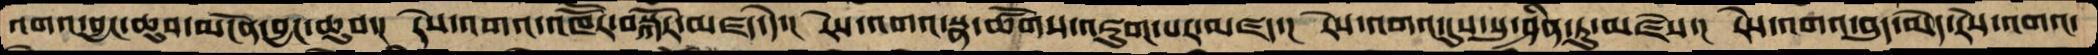འགའ་བྱང་ཆུབ་མངོན་བྱང་ཆུབ་།  རེས་འགའ་འཁཽར་བསྐོར་མཛད་དེ་།  རེས་འགའ་སྣ་ཚོགས་འཇུག་པར་མཛད་།  རེས་འགའ་དུས་སུ་ཤིན་ཏུ་མཛེས་།  རེས་འགའ་བུད་མེད་རེས་འགའ་
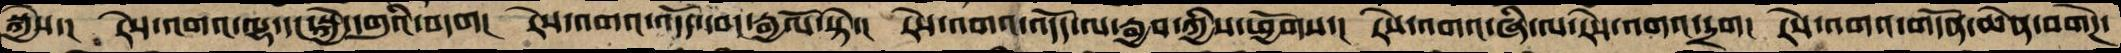སྐྱེས་།   རེས་འགའ་ལྷ་དང་སྐྱེ་འགུའི་བདག།  རེས་འགའ་འདོད་དབང་རྒྱལོ་སྟེ་།  རེས་འགའ་འདོད་ལ་རྒྱབ་ཀྱིས་ཕྱོགས་།  རེས་འགའ་ཞི་ལ་རེས་འགའ་དྲག།  རེས་འགའ་གདོན་ཆེན་བགེཌ་
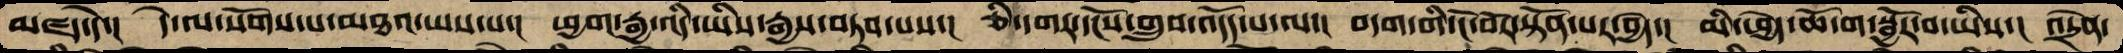མཛད་དེ་།  དེ་ལ་སོགས་པ་མཐའ་ཡས་པ་།  ཕྱག་རྒྱ་འདི་ཡིས་རྒྱས་བཏབ་པས་།  ཅི་དགར་དངོས་གྲུབ་འདོད་པ་ལ་།  བདག་གི་ངོ་བོར་སྟོན་པར་བྱེད་།  མིང་བྱེད་ཆོ་ག་སྦྱོར་བ་ཡིས་།  འདྲེན་
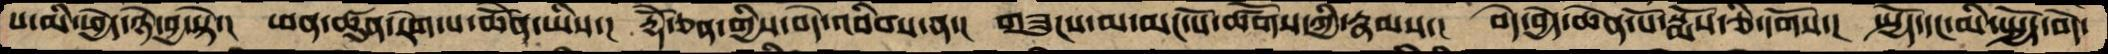པ་མི་ཕྱེད་ཉེ་བྱ་སྟེ་།  ཕན་ཚུན་རེག་པ་ཆེནོ་ཡིས་།  རྡོེ་ཅན་གྱིས་བདེ་འབིབས་ན་།  གཟུངས་མ་མང་པོ་ཚོགས་ཀྱི་རྣམས་།  བདེ་བྱེད་ཆེན་པོ་སྨོས་ཅི་དགོས་།  སྤྱོད་དང་མི་སྤྱོད་བདེ་
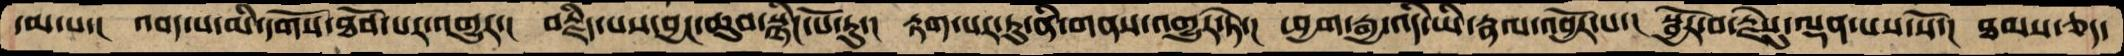དམ་པ་།  འབད་པ་མི་དགོས་ཐོབ་པར་འགྱུར་།  བརྗིད་པས་བྱང་ཆུབ་སྙིང་པོ་རུ་།  རྟག་པར་ཏུ་ནི་གནས་འགྱུར་ཏེ་།  ཕྱག་རྒྱ་འདི་ཡི་རྣལ་འབྱོར་པ་།  སྦྱོར་བ་རྗེསུ་ལྡན་པས་སོ་།  ཐམས་ཅད་
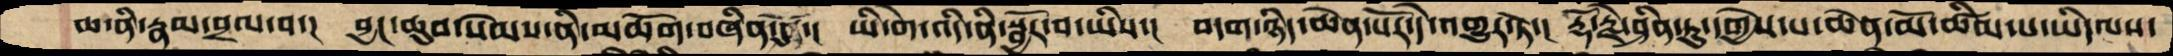ཆ་ནི་རྣམ་བྲལ་བ་།  བྱང་ཆུབ་སེམས་ནི་མཆོག་བཞིན་དུ་།  ཡི་གེ་འདི་ནི་སྦྱོར་བ་ཡིས་།  བདག་ཉིད་ཆེན་པོར་དེ་འགྱུར་ཏེ་།  རྡོ་རྗེ་ཤིན་ཏུ་དགྱེས་པ་ཆེན་མོ་ཚིམ་པ་ཡིད་ལས་
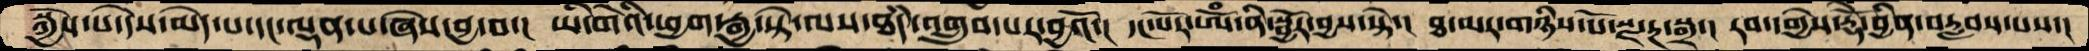སྐྱེས་པ་དེས་མེད་པ་དང་ལྡན་པ་ཞེས་བྱ་བ་།  ཡི་གེའི་ཕྱག་རྒྱ་སྟེ་ལས་ཐདཾ་འགྲུབ་པར་བྱའོ་།  དང་པོར་ཨོཾ་ནི་སྦྱོར་བྱས་སྟེ་།  ཐ་མར་གཉིས་པོ་སྫ་རྔ་སྒྲ་།  རབ་དགྱེས་རྡོེ་བྱིན་བརླབས་པས་།
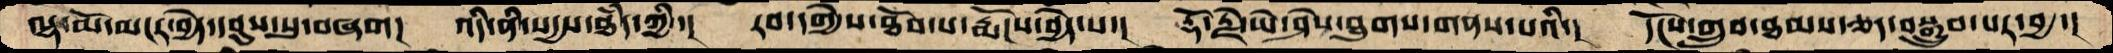ལྷ་མོ་མངར་བྱེད་དབུས་སུ་བཞག།  འདི་ནི་སདྱས་ཐདཾ་ཀྱི་།  རབ་དགྱེས་ཐོབ་པ་རྨོངས་བྱེད་པ་།  རྡོ་རྗེ་ཡེ་ཤེས་ཐུགས་གནས་པའི་།  དངོས་གྲུབ་ཐམས་ཅད་བསྒྲུབ་པར་བྱ་།
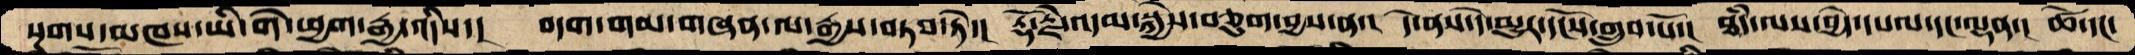སྔགས་མཁས་ཡི་གེ་ཕྱག་རྒྱ་འདིས་།  བདག་གམ་གཞན་ལ་རྒྱས་བཏབ་ཏེ་།  རྡོ་རྗེ་འདམ་སྐྱེས་བཅུག་བྱས་ན་།  དེ་ནས་དེ་མྱུར་དངོས་གྲུབ་པོ་།  ཐདཾ་ལས་བྱེད་དཔལ་དང་ལྡན་།  ཚེ་དང་
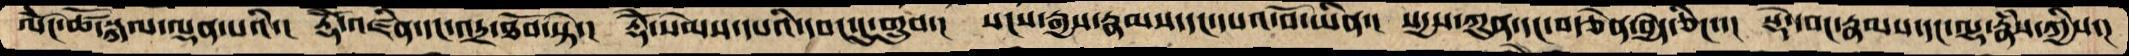ལོང་ཚོ་སྐལ་ལྡན་པའི་།  རྡོེ་འཛིན་དང་འདྲ་ཐོབ་སྟེ་།  རྡོེ་སེམས་དཔའི་དབང་དུ་གྲུབ་།  སངས་རྒྱས་རྣམས་དང་དཔའ་བོ་ཡིན་།  སདྱས་ཀུན་དང་བརྩེན་བྱེད་ཅིང་་།  སྡེ་དབང་རྣམས་དང་ལྷ་རྣཾས་ཀྱིས་།
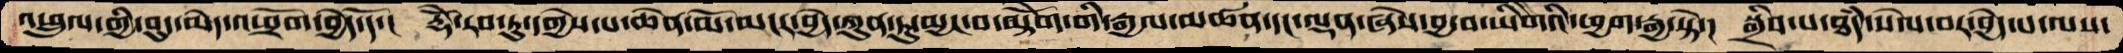འཕྲུལ་གྱི་བུད་མེད་འཕྲོག་བྱེད་དོ་།  རྡོེ་རབ་ཏུ་དགྱེས་པ་ཆེན་མོ་མངར་བྱེད་ཀུན་ཏུ་མྱང་བ་མྟེོག་གི་རྒྱལ་མཚན་ལྡན་ཞེས་བྱ་བ་ཡིགེའི་ཕྱག་རྒྱ་སྟེ་།  སྒྲིབ་པ་ཐདཾ་སེལ་བར་བྱེད་པ་ལས་
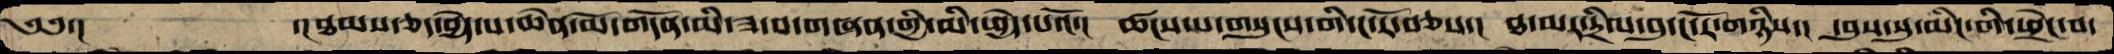༄༅་།         ་།ཐམས་ཅད་བྱེད་པ་ཆེན་མོ་གདོན་མི་ཟ་བ་གཞན་གྱི་མི་ཕྱེད་པའོ་།  ཚངས་པ་གསུངས་གི་ང་རོ་བཅས་།  ཐ་མར་དྲིལ་བུ་ང་རོ་གཉིས་།  དབུས་སུ་མིང་གི་ཕྲེང་བ་
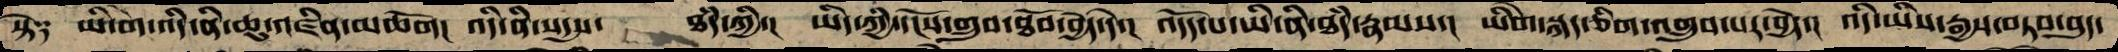སྟེ༑  ཡི་གེ་འདི་ནི་ཆུ་འཛིན་མཆོག།  འདི་ནི་སདྱས་   ཐཾད་ཀྱི་།  ཡིད་ཀྱི་དངོས་གྲུབ་ཐོབ་བྱེད་དེ་།  འདོད་པ་ཡི་ནི་ཐཾད་རྣམས་།  ཡིགེ་སྐད་ཅིག་འགྲུབ་པར་བྱེད་།  འདི་ཡིས་རྒྱས་བཏབ་བུད་
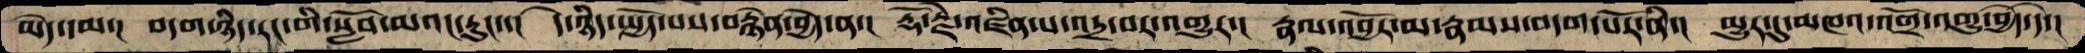མེད་དམ་།  བདག་ཉིད་རང་གི་སློབ་མའང་རུང་་།  དེ་ཉིད་སྤྱོད་པས་བརྙེན་བྱེད་ན་།  རྡོ་རྗེ་འཛིན་པ་འདྲ་བར་འགྱུར་།  རྣལ་འབྱོར་མ་རྣམས་བདག་པོར་ནི་།  མྱུར་དུ་མཁའ་འགྲོ་འགྱུ་བྱེད་དེ་།
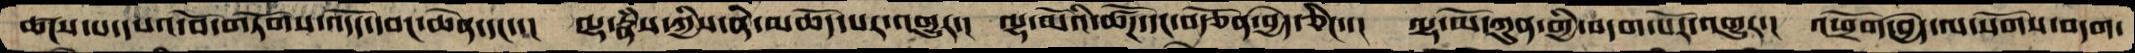ཚངས་པ་དཔའ་བོ་གཏོགས་འདོད་དབང་ཆེན་དང་་།  ལྷ་རྣཾས་ཀྱིས་ནི་མཆོད་པར་འགྱུར་།  ལྷ་མོའི་ཚོཌ་དང་བརྩོན་བྱེད་ཅིང་་།  ལྷ་མོ་ཀུན་གྱི་བདག་པོར་འགྱུར་།  འཕྲོག་བྱེད་ལ་སོགས་བདག་
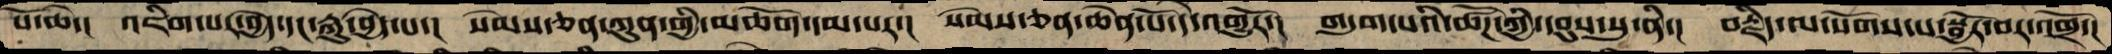པོ་ཆེ་།  འཇིག་པར་བྱེད་དང་རྐུ་བྱེད་པ་།  སེམས་ཅན་ཀུན་གྱི་མཆོག་དམ་པར་།  སེམས་ཅན་ཆེན་པོ་དེ་འགྱུརོ་།  གདུག་པའི་ཚོཌ་ཀྱི་དབུས་སུ་ནི་།  བརྗིད་ལ་སོགས་པ་སྦྱོར་བར་འགྲོ་།
